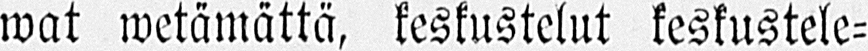wat wetämättä, keskustelut keskustele-
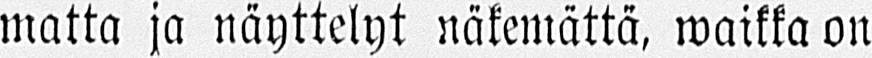matta ja näyttelyt näkemättä, waikka on
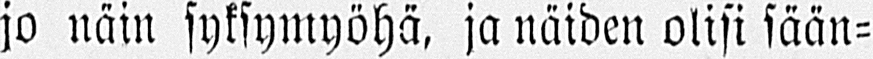jo näin syksymyöhä, ja näiden olisi sään-
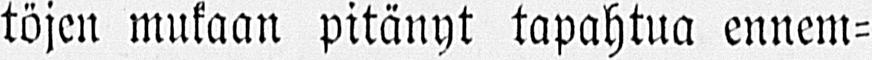töjen mukaan pitänyt tapahtua ennem-
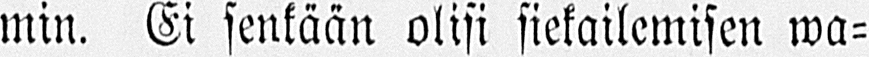min. Ei senkään olisi siekailemisen Ma-
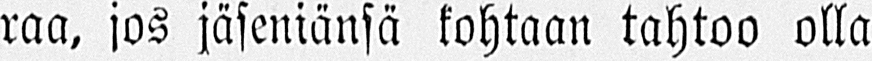raa, jos jäseniänsä kohtaan tahtoo olla
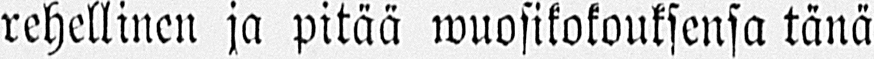rehellinen ja pitää wuosikokouksensa tänä
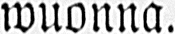wuonna.
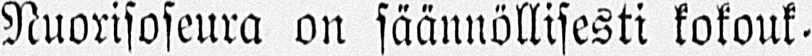Nuorisoseura on säännöllisesti kokouk-
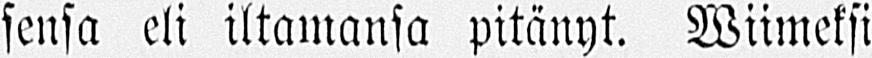sensa eli iltamansa pitänyt. Wiimeksi
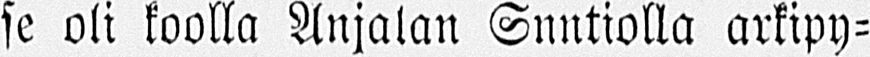se oli koolla Anjalan Snntiolla arkipy-
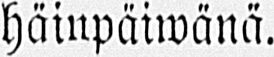häinpäiwänä.
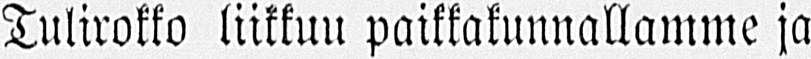Tulirokko liikkuu paikkakunnallamme ja
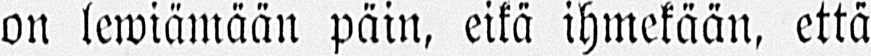on lewiämään päin, eikä ihmekään, että
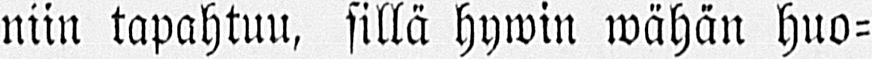niin tapahtuu, sillä hywin wähän huo-
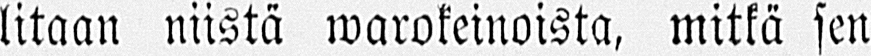litaan niistä warokeinoista, mitkä sen
